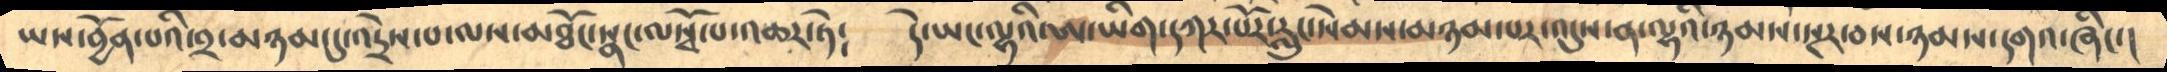ཡས་བྱོན་པའི་༢་མཉམ་དུ་འདྲེས་པ་ལས་མཐོང་སྣང་ལསྭོ་པ་འཆར་ཏེ༴   དེ་ཡང་ལྷའི་ཨ་ཡིག་དཀར་པོར་སེམས་མཉམ་པར་འདུས་ན་ལྷའི་ཉམས་སྔར་བས་ཉམས་དགའ་ཞིང་།
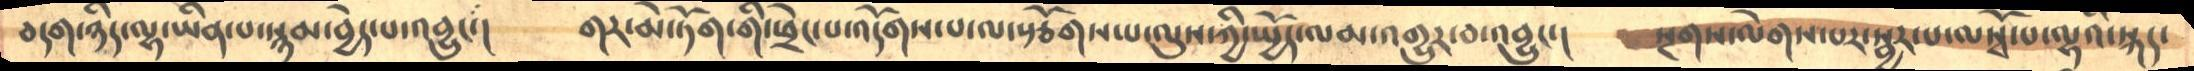བདག་ཉིད་ལྷ་ཡིན་པ་སྙམ་བྱེད་པ་འབྱུང་།   གར་མེ་ཏོག་གི་ཕྲེང་པ་འདོགས་པ་ལ་སྩོགས་པ་ལུས་ཀྱི་སྤྱོད་ལམ་འགྱུར་བ་འབྱུང་།   སྔགས་ལེནས་པར་སྦྱར་པ་ལསྭོ་པ་ལྷའི་སྐད་
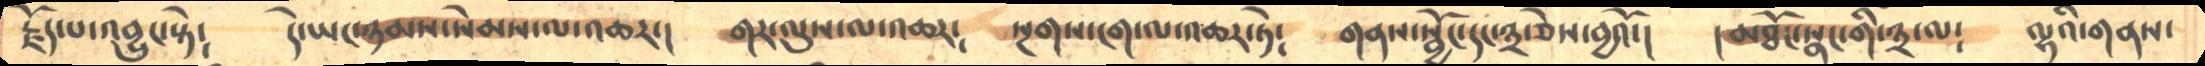རྗོད་པ་འབྱུང་སྟེ༴   དེ་ཡང་ཉམས་སེམས་ལ་འཆར་།   གར་ལུས་ལ་འཆར༴    སྔགས་ངག་ལ་འཆར་ཏེ༴   གནས་སྦྱོང་དང་༣་ཅེས་བྱའོ་།   །མཐོང་སྣང་གི་༣་ལ༴   ལྷའི་གནས་
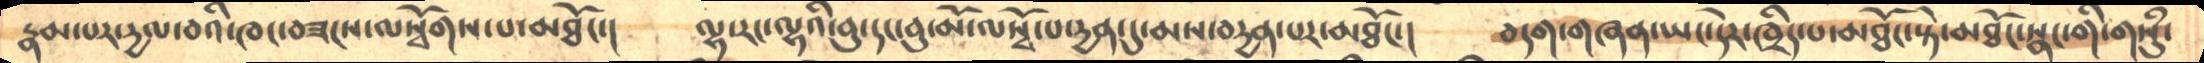རྣམ་པར་དྱལ་བའི་ཁང་བཟངས་ལསྭོགས་པ་མཐོང་།    ལྷ་རང་ལྷའི་བུ་དང་བུ་མོ་ལསྭོ་པ་དྱན་དུ་མས་དྱན་པར་མཐོང་།   བདག་གཞན་ཡང་དེར་ཁྲིད་པ་མཐོང་སྟེ་མཐོང་སྣང་གི་གསུཾ་
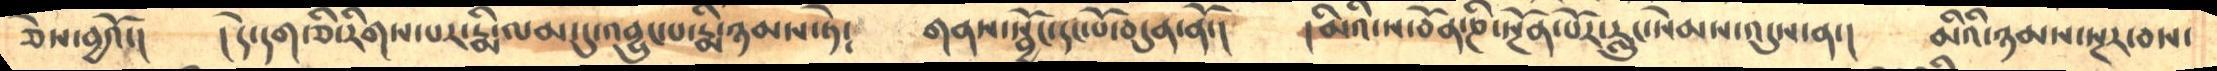ཅེས་བྱའོ་།   །དེ་དག་ཅི་རིགས་པར་རྨི་ལམ་དུ་འབྱུང་པ་རྨི་ཉམས་ཏེ༴   གནས་སྦྱོང་དང་པོ་བདུན་ནོ་།   །མིའི་ས་བོན་ཎི་སྔོན་པོར་རླུང་སེམས་འདུས་ན་།    མིའི་ཉམས་སྔར་བས་
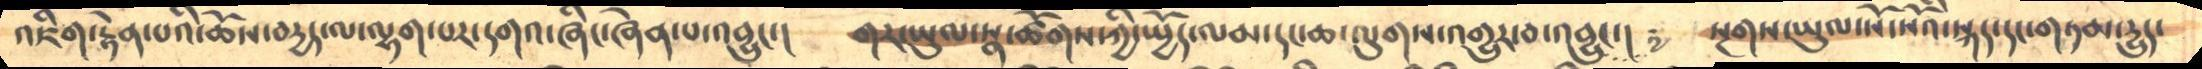འཇིག་རྟེན་པའི་ཆོས་བདྱད་ལ་ལྷག་པར་དགའ་ཞིང་ཞེན་པ་འབྱུང་།   གར་ཡུལ་སྣ་ཚོགས་ཀྱི་སྤྱོད་ལམ་དང་ཆ་ལུགས་འགྱུར་བ་འབྱུང་།   སྔགས་ཡུལ་སོ་སོའི་སྐད་དང་གཏམ་དྱུད་
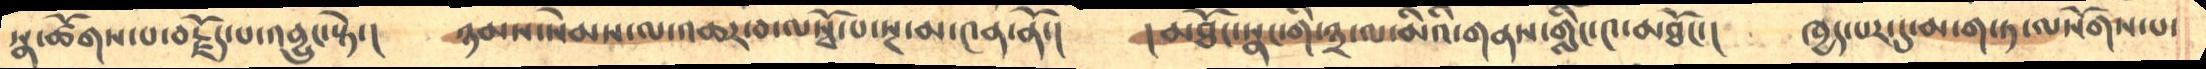སྣ་ཚོགས་པ་བརྗོད་པ་འབྱུང་སྟེ་།   ཉམས་སེམས་ལ་འཆར་བ་ལསྭོ་པ་སྔ་མ་༤ན་ནོ་།   །མཐོང་སྣང་གི་༣་ལ་མིའི་གནས་གླིང་༤་མཐོང་།    ཁྱད་པར་དུ་མ་ག་ཏ་ལསོགས་པ་
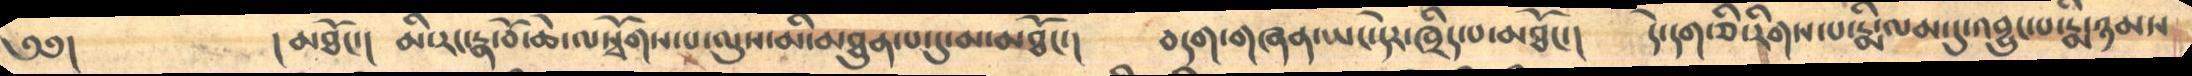༄༅།       །མཐོང་།  མི་རང་རྣ་བོ་ཆེ་ལསྭོགས་པ་ལུས་མི་མཐུན་པ་དུ་མ་མཐོང་།   བདག་གཞན་ཡང་དེར་ཁྲིད་པ་མཐོང་།   དེ་དག་ཅི་རིགས་པ་རྨི་ལམ་དུ་འབྱུང་པ་རྨི་ཉམས
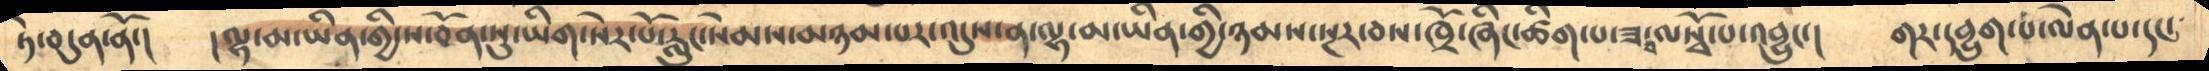ཏེ་བདུན་ནོ་།    །ལྷ་མ་ཡིན་གྱི་ས་བོན་སུ་ཡིག་སེར་པོ་རླུང་སེམས་མཉམ་པར་འདུས་ན་ལྷ་མ་ཡིན་གྱི་ཉམས་སྔར་བས་ཁྲོ་ཞིང་ཚིག་པ་ཟ་བ་ལསྭོ་པ་འབྱུང་།   གར་དབྱུག་པ་ལེན་པ་དང་
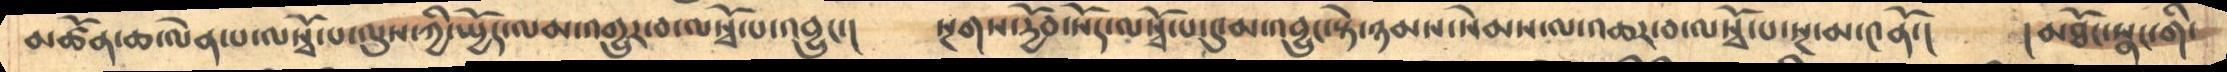མཚོན་ཆ་ལེན་པ་ལསྭོ་པ་ལུས་ཀྱི་སྤྱོད་ལམ་འགྱུར་བ་ལསྭོ་པ་འབྱུང་།   སྔགས་དྱོབ་སོད་ལསྭོ་པ་དུ་མ་འབྱུང་སྟེ་ཉམས་སེམས་ལ་འཆར་བ་ལསྭོ་པ་སྔ་མ་༤ནོ་།    །མཐོང་སྣང་གི་
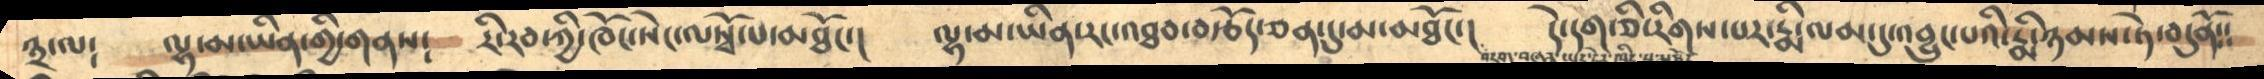༣་ལ༴   ལྷ་མ་ཡིན་གྱི་གནས༴   རི་རབ་ཀྱི་ཁོང་སེང་ལསྭོ་པ་མཐོང་།    ལྷ་མ་ཡིན་རང་འཐབ་བརྩོད་ཅན་དུ་མ་མཐོང་།   དེདག་ཅི་རིགས་པར་རྨི་ལམ་དུ་འབྱུང་པའི་རྨི་ཉམས་ཏེ་བདུནོ༴༴
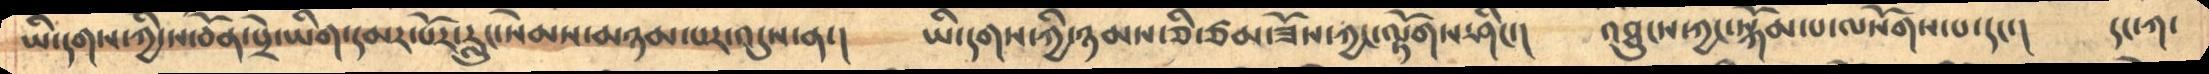ཡི་དགས་ཀྱི་ས་བོན་པྲེ་ཡིག་དམར་པོར་རླུང་སེམས་མཉམ་པར་འདུས་ན་།   ཡི་དགས་ཀྱི་ཉམས་ཅི་ཙམ་ཟོས་ཀྱང་ལྟོགས་ཤིང་།   འཐུངས་ཀྱང་སྐོམ་པ་ལསྭོགས་པ་དང་།   དང་ཀ་
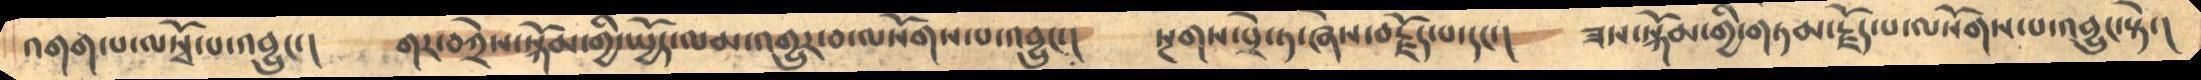འགག་པ་ལསྭོ་པ་འབྱུང་།   གར་བཀྲེས་སྐོམ་གྱི་སྤྱོད་ལམ་འགྱུར་བ་ལསོགས་པ་འབྱུང་།   སྔགས་པྲེ་ཏ་ཞེས་བརྗོད་པ་དང་།   ཟས་སྐོམ་གྱི་གཏམ་རྗོད་པ་ལསོགས་པ་འབྱུང་སྟེ་།
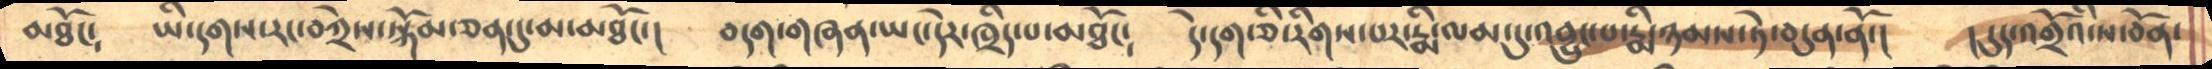མཐོང༴    ཡི་དགས་རང་བཀྲེས་སྐོམ་ཅན་དུ་མ་མཐོང་།   བདག་གཞན་ཡང་དེར་ཁྲིད་པ་མཐོང༴    དེ་དག་ཅི་རིགས་པར་རྨི་ལམ་དུ་འབྱུང་པ་རྨི་ཉམས་ཏེ་བདུན་ནོ་།   །དུད་འགྲོའི་ས་བོན་
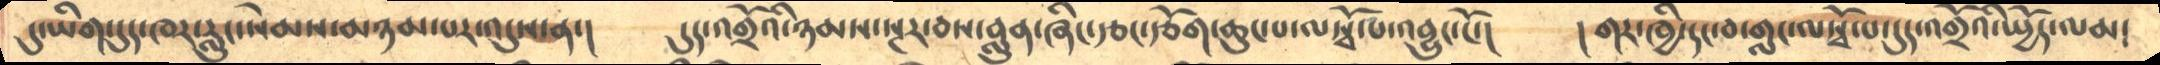དུ་ཡིག་དུད་ཁར་རླུང་སེམས་མཉམ་པར་འདུས་ན་།   དུད་འགྲོའི་ཉམས་སྔར་བས་བླུན་ཞིང་རྩང་རྩོག་ཆུང་པ་ལསྭོ་པ་འབྱུང་ངོ།   །གར་ཁྱི་དང་བ་གླང་ལསྭོ་པ་དུད་འགྲོའི་སྤྱོད་ལམ༴
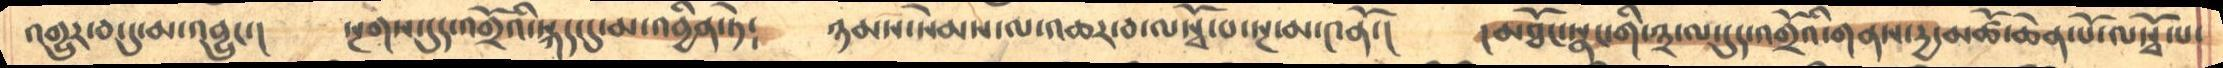འགྱུར་བ་དུ་མ་འབྱུང་།    སྔགས་དུད་འགྲོའི་སྐད་དུ་མ་འབྱིན་ཏེ༴    ཉམས་སེམས་ལ་འཆར་བ་ལསྭོ་པ་སྔ་མ་༤ནོ་།    །མཐོང་སྣང་གི་༣་ལ་དུད་འགྲོའི་གནས་དྱ་མཚོ་ཆེན་པོ་ལསྭོ་པ་
